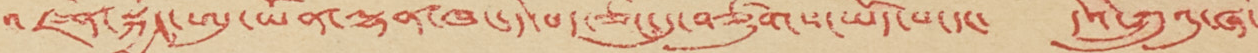འཛིན་སྐྱོང་ཨུ་ཡོན་ལྷན་ཁང་དེ་པད་ཅིང་དུ་བཙུགས་ཡོད་པ་དང་ དེའི་ཀྲུའུ་ཞི་
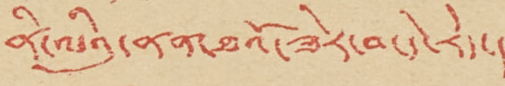ནི་ལིའུ་ནན་ཐའོ་ཟེར་བ་དེ་རེད་།
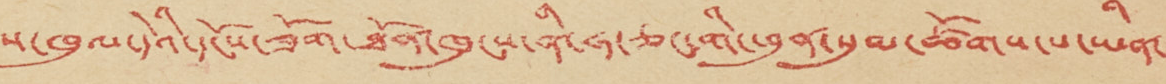ས་ཁུལ་དེའི་དངོས་ཟོག་ཐོན་ཁུངས་ནི་ཧ་ཅང་གི་ཕུན་སུམ་ཚོགས་པ་ཡིན་
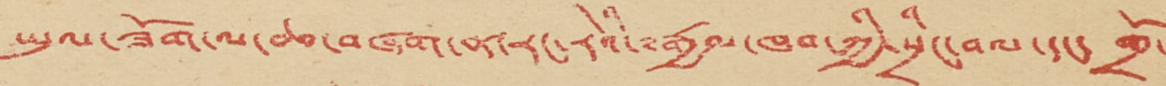ཏེ་ ཡུལ་ཟོག་ལ་ཆ་བཞག་ན་རང་རེའི་༸རྒྱལ་ཁབ་ཀྱི་སྲིང་བལ་དང་ གྲོ་
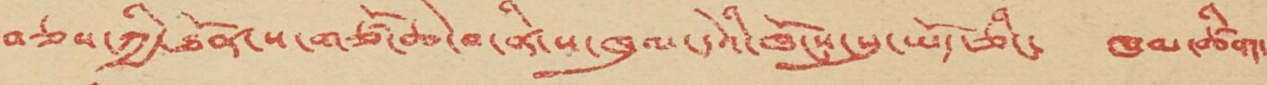བཅས་ཀྱི་ཐོན་ས་གཙོ་ཆེ་བ་ནི་ས་ཁུལ་དེའི་ཁོངས་སུ་ཡོད་ཅིང་ ཁམ་ཚིག་
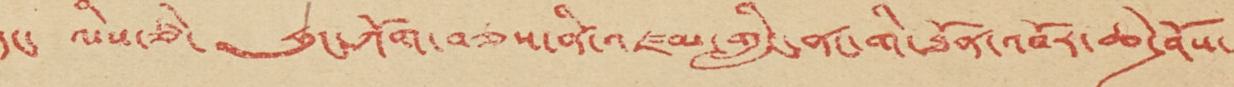དང་ ལིས་ཙེ་ ཧུང་ཀོག་བཅས་ནི་འཛམ་གླིང་ནང་གི་ཐོན་འབོར་ཆེ་ཤོས་
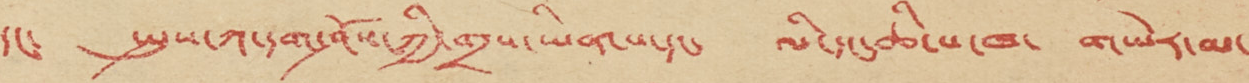དང་ སྤུས་ཀ་དག་ཤོས་ཀྱི་གྲས་ཡོན་པ་དང་ ལི་དང་ཆི་པ་ཁ་ གཡེར་མ་
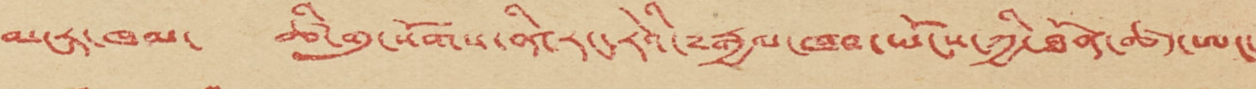མངར་ཁམ་ ཚི་གུ་སོགས་ནི་རང་རེའི་༸རྒྱལ་ཁབ་ཡོངས་ཀྱི་ཐོན་ཚད་ཨང་
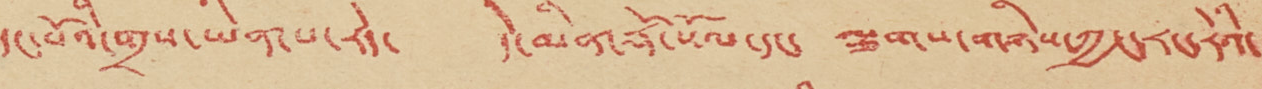དང་པོའི་གྲས་ཡིན་པ་རེད་ དེ་མིན་རྡོ་སོལ་དང་ ལྕགས་གཉིས་ཀྱང་རང་རེའི་
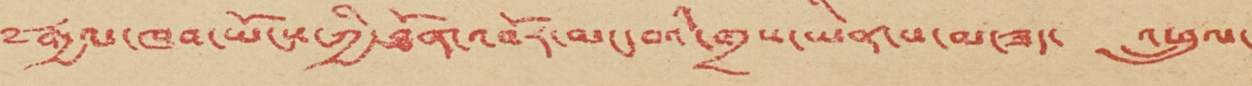༸རྒྱལ་ཁབ་ཡོངས་ཀྱི་ཐོན་འབོར་མང་བའི་གྲས་ཡིན་པ་མ་ཟད་ འཕྲུལ་
